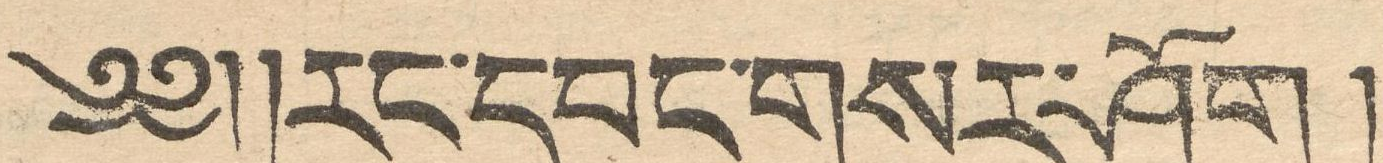༄༅།། རང་དབང་གསར་ཤོག །
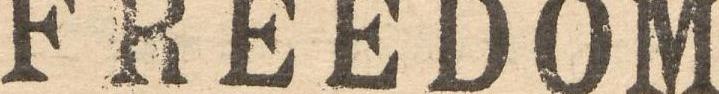FREEDOM
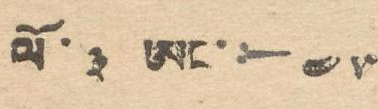ལོ་ ༣ ཨང་:— ༤༥
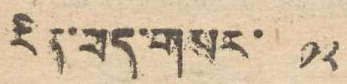རིན་ཕད་གསར་ ༡༢
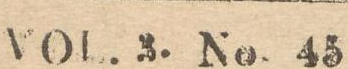VOL. 3. No. 45
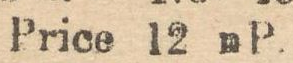Price 12 nP
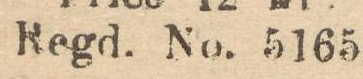Regd. No. 5165
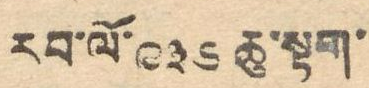རབ་ལོ་ ༩༣༦ ཆུ་སྟག་
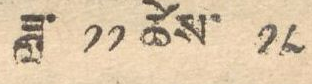ཟླ་ ༡༡ ཚེས་ ༡༨
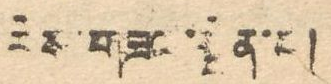རེས་གཟའ་སྤེན་པ།
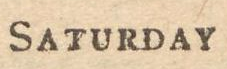SATURDAY
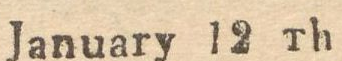January 12 th
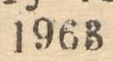1963
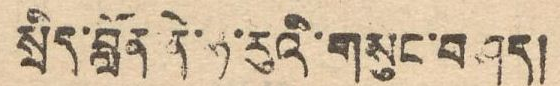སྲིད་བློན ནེ་ཧ་རུའི་གསུང་བཤད།
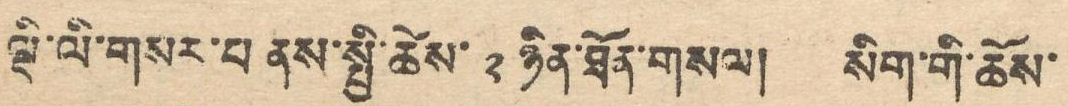ལྡི་ལི་གསར་བ ནས་སྤྱི་ཚེས་ ༢ ཉིན་ཐོན་གསལ། སིག་གི་ཆོས་
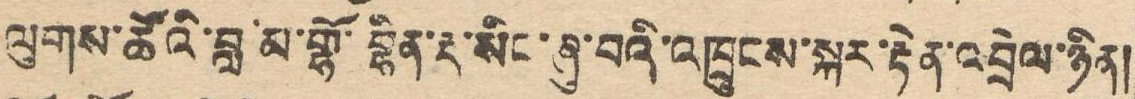ལུགས་ཚོའི་བླ་མའི་གྷོ་བྷིན་རྡ་སིང་ཞུ་བའི་འཁྲུངས་སྐར་རྟེན་འབྲེལ་ཉིན།
